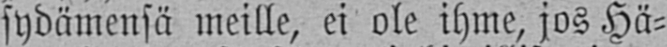sydämensä meille, ei ole ihme, jos Hä-
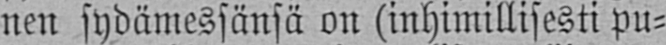nen sydämessänsä on (inhimillisesti pu-
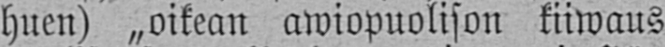huen) „oikean awiopuolison kiiwaus
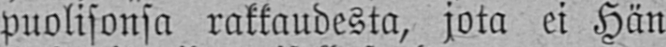puolisonsa rakkaudesta, jota ei Hän
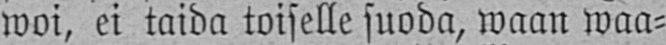woi, ei taida toiselle suoda, waan waa-
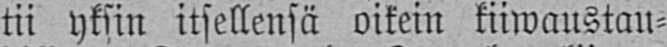tii yksin itsellensä oikein kiiwaustau-
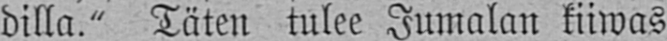dilla." Täten tulee Jumalan kiiwas
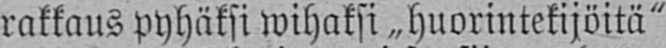rakkaus Pyhäksi wihaksi ˶huorintekijöitä"
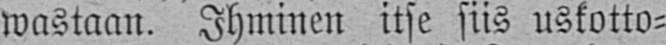wastaan. Ihminen itse siis uskotto-
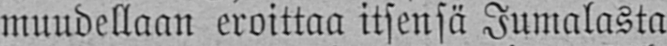muudellaan eroittaa itsensä Jumalasta
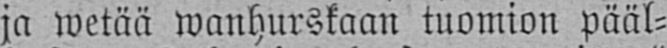ja wetää wanhurskaan tuomion pääl-
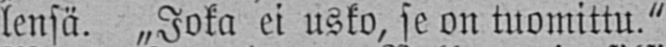lensä. „Joka ei usko, se on tuomittu."
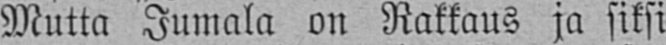Mutta Jumala on Rakkaus ja siksi
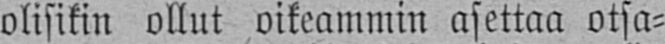olisikin ollut oikeammin asettaa otsa-
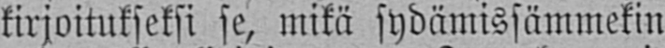kirjoitukseksi se, mikä sydämissämmekin
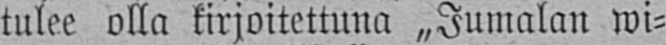tulee olla kirjoitettuna „Jumalan wi-
